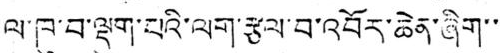ལ་ཁུ་བ་ལྡུག་པའི་ལག་རྩལ་བ་འབོར་ཆེན་ཞིག་་་
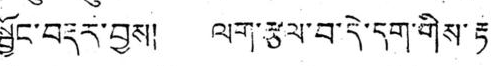སྦྱོང་བརྡར་བྱས། ལག་རྩལ་བ་དེ་དག་གིས་རྟ་
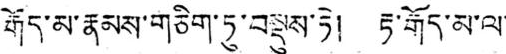རྒོད་མ་རྣམས་གཅིག་ཏུ་བསྡུས་ཏེ། རྟ་རྒོད་མ་ལ་
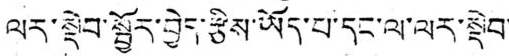ལར་སྡེབ་སྦྱོར་བྱེད་རྩིས་ཡོད་པ་དང་ལ་ལར་སྡེབ་
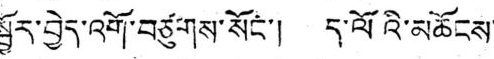སྦྱོར་བྱེད་འགོ་བཙུགས་སོང་། ད་ལོའི་མཆོངས་
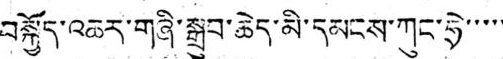བསྐྱོད་འཆར་གཞི་སྒྲུབ་ཆེད་མི་དམངས་ཀུང་ཧྲེ་་་་་
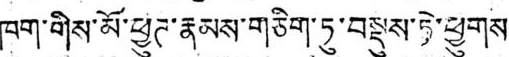ཁག་གིས་མོ་ཕྱུཊ་རྣམས་གཅིག་ཏུ་བསྡུས་ཏེ་ཕྱུགས
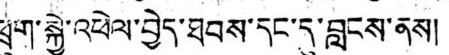ཕྲུག་སྐྱེ་འཕེལ་བྱེད་ཐབས་དང་དུ་བླངས་ནས།
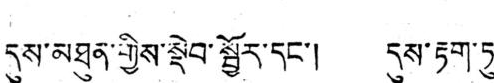དུས་མཐུན་གྱིས་སྡེབ་སྦྱོར་དང་། དུས་རྟག་ཏུ་
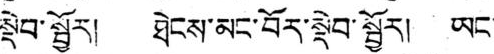སྡེབ་སྦྱོར། ཐེངས་མང་བོར་སྡེབ་སྦྱོར། ཡང་
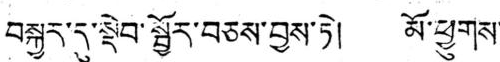བསྐྱར་དུ་སྡེབ་སྦྱོར་བཅས་བྱས་ཏེ། མོ་ཕྱུགས་
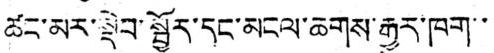ཚང་མར་སྡེབ་སྦྱོར་དང་མངལ་ཆགས་རྒྱུར་ཁག་་་
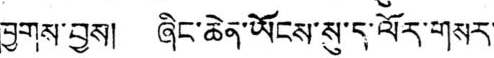ཁྱགས་བྱས། ཞིང་ཆེན་ཡོངས་སུ་ད་ལོར་གསར་
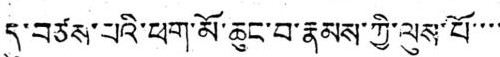དུ་བཙས་པའི་ཕག་མོ་ཆུང་བ་རྣམས་ཀྱི་ལུས་པོ་་་་
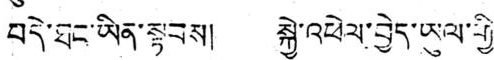བདེ་ཐང་ཡིན་སྟབས། སྐྱེ་འཕེལ་བྱེད་ཡུལ་གྱི་
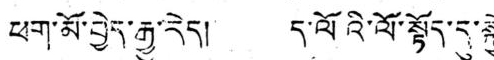ཕག་མོ་བྱེད་རྒྱུ་རེད། ད་ལོའི་ལོ་སྟོད་དུ་སྐྱེ་
